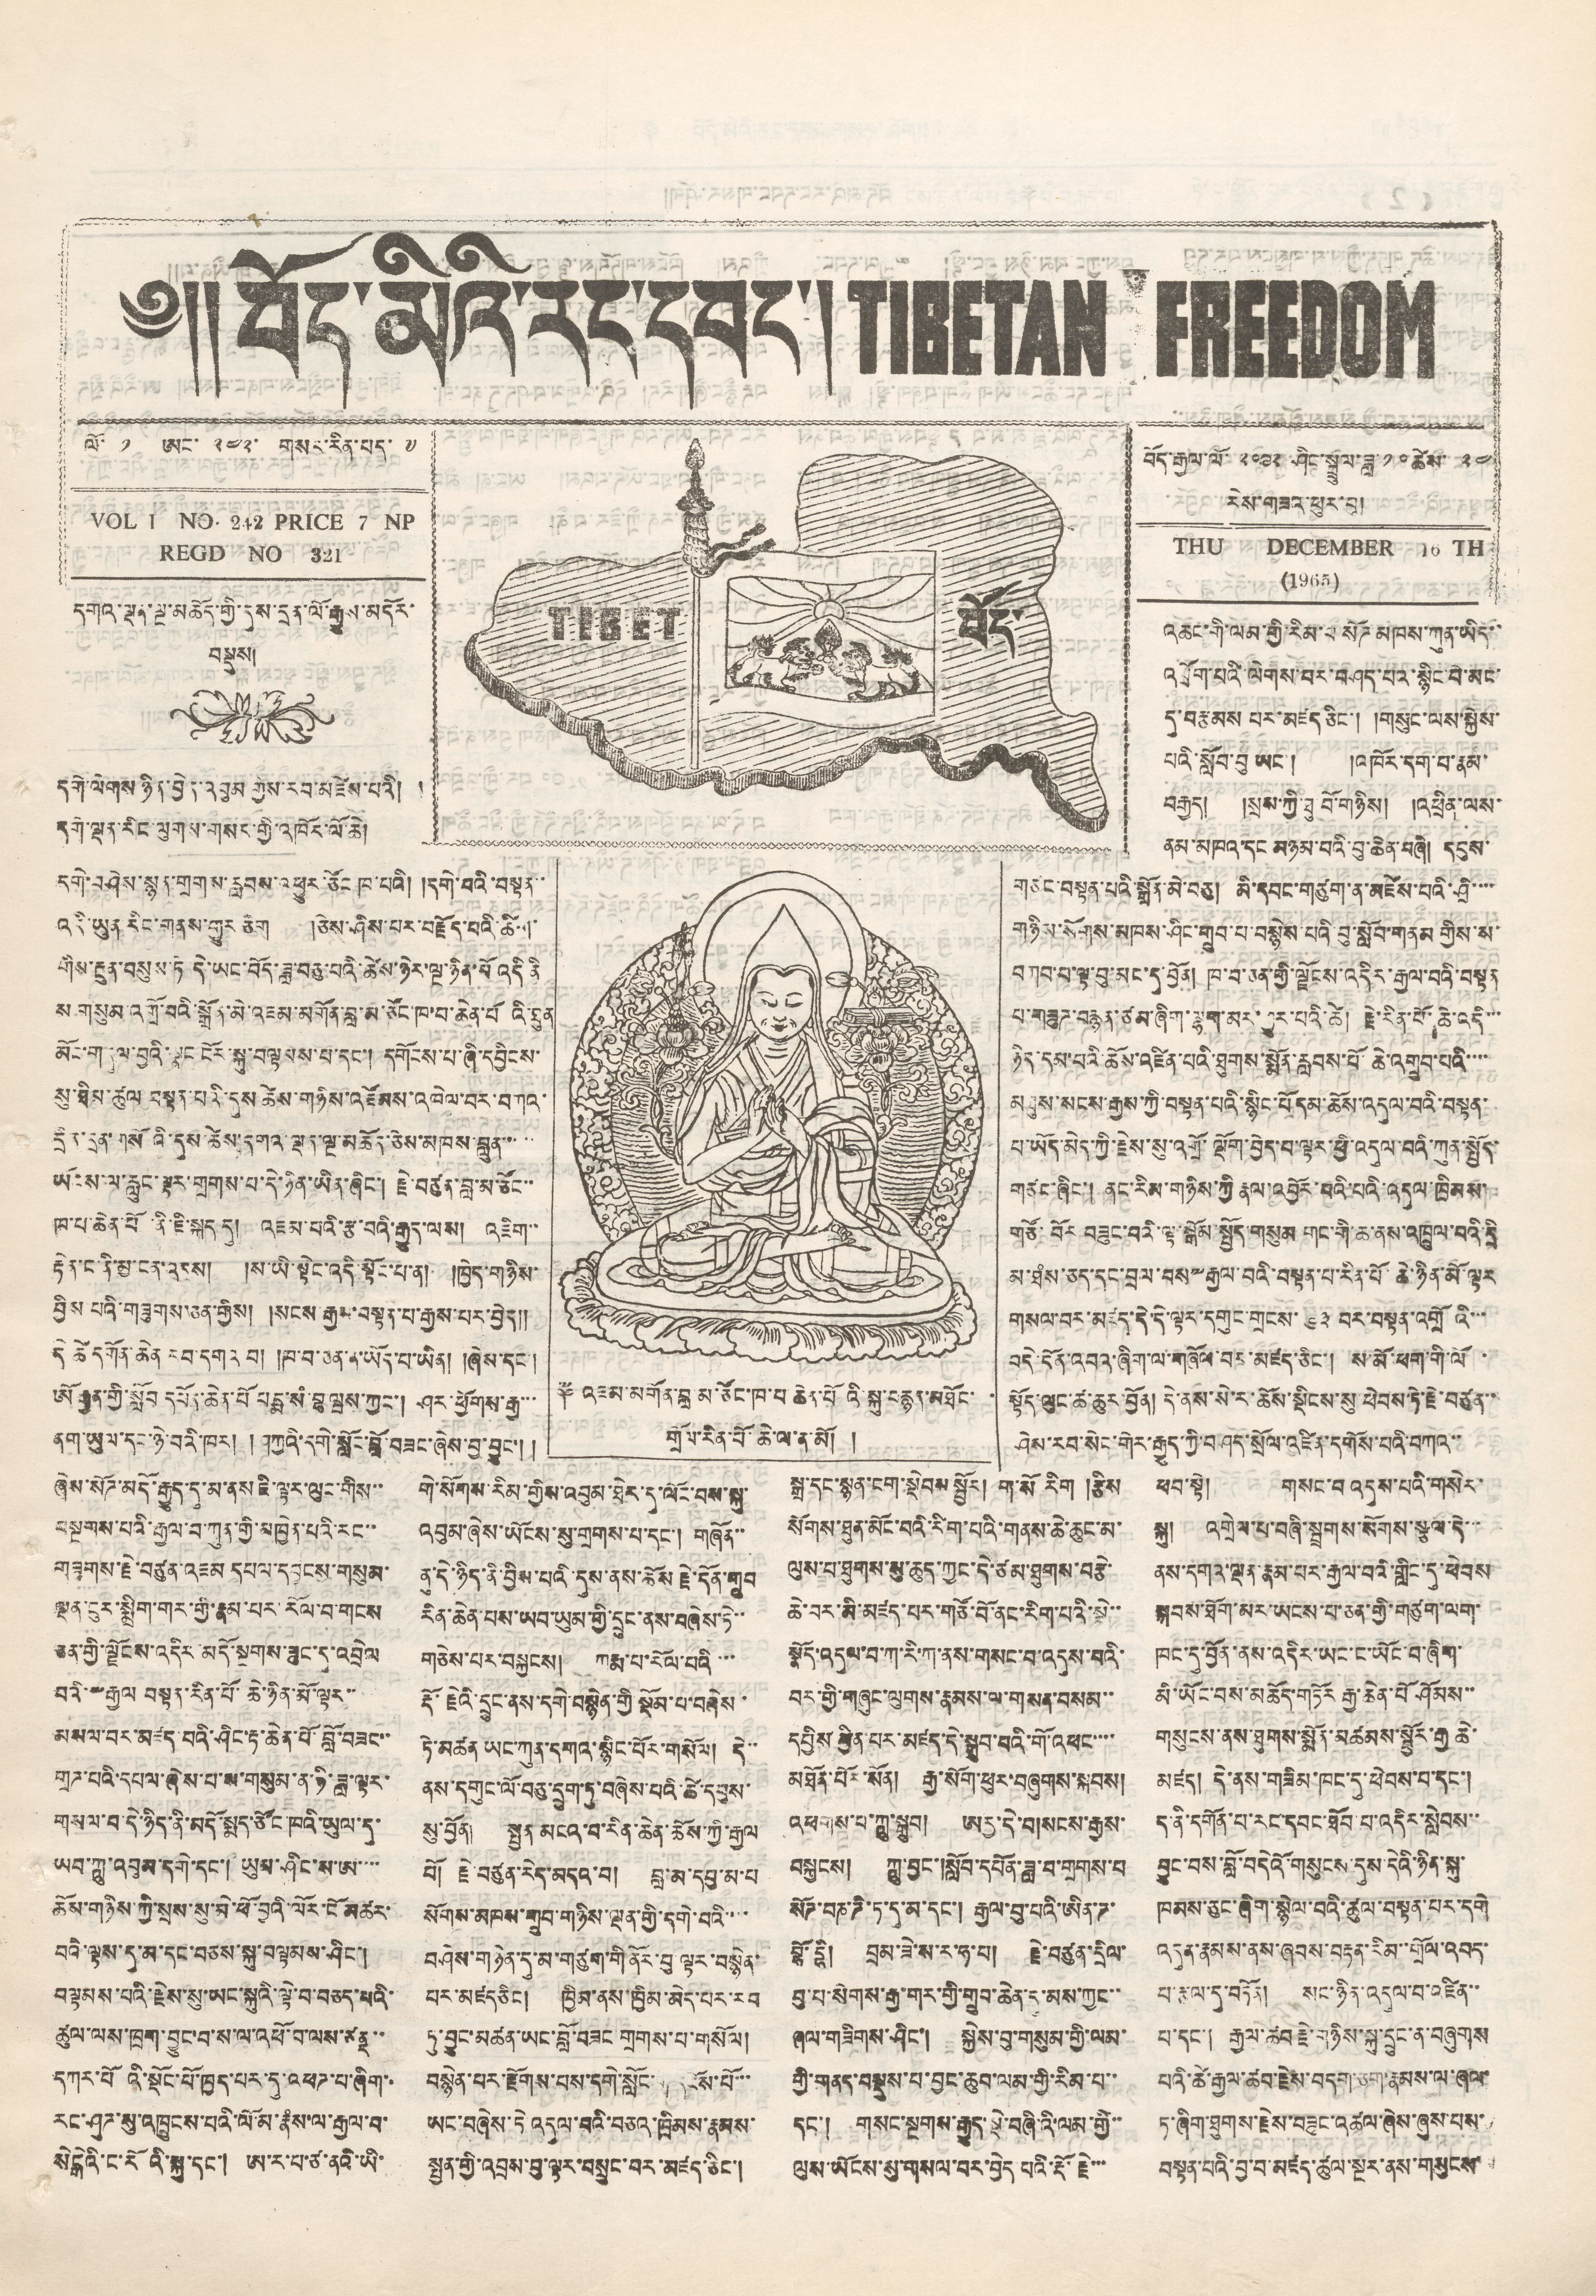༄།། བོད་མིའི་རང་དབང་། TIBETAN FREEDOM
ལོ་ ༡ ཨང་ ༢༤༢་ གསར་རིན་པད་ ༧
བོད་རྒྱལ་ལོ་ ༢༠༩༢ ཤིང་སྦྲུག་ཟླ་ ༡༠ ཚེས་ ༢༤
རེས་གཟའ་ཕུར་བུ།
VOL 1 NO 212 PRICE 7 NP.
REGD NO 321
THU DECEMBER 16 TH
(1965)
TIBET བོད་
༈ འཇམ་འགོན་བླ མ་ཙོང་ཁ་པ་ཆེན་པོའི་སྐུ་བརྙན་མཐོང་
གྲོལ་རིན་པོ་ཆེ་ལ་ན་མོ། །
དགའ་ལྡན་ལྔ་མཆོད་གྱི་དུས་དྲན་ལོ་རྒྱུས་མདོར་
བསྡུས།
དགེ་ལེགས ཉིན་བྱེད་འབུམ གྱིས་རབ་མཛེས་པའི། །
དགེ་ལྡན་རིང་ལུགས་གསར་གྱི་འཁོར་ལོ་ཆེ།
དགེ་བཤེས་སྙན་གྲགས་རླབས་འཕྱུར་ཙོང ཁ་པའི། །དགེ་བའི་བསྟན་་
པའི་ཡུན རིང་གནས་གྱུར ཅིག །ཅེས་ཤིས་པར་བརྗོད་པའི་ཚིག་
གིས་རྔུན་བསུས་ཏེ དེ་ཡང་བོད་ཟླ་བཅུ་པའི་ཚེས་ཉེར་ལྔ་ཉིན་མི འདི ནི
ས གསུམ་འགྲོ་བའི་སྒྲོན་མེ་འཇམ་མགོན་བླ་མ་ཙོང་ཁ་བ་ཆེན་པོའི་ཐུན
མོང་གདུལ་བྱའི་སྣང ངོར་སྐུ་བལྟམས་པ་དང་། དགོངས་པ་ཞི་དབྱིངས་
སུ་ཐིམ་ཚུལ བསྟན་པའི་དུས ཚེས་གཉིས་འཛོམས་འཁེལ་བར་བཀའ་
དྲིན་དྲན་གསོའི་དུས་ཚེས་དགའ་ལྡན་ལྔ་མཆོད་ཅེས་མཁས་བླུན་་་་་
ཡོངས་ལ་རླུང་ལྟར་གྲགས་པ་དེ་ཉིན་ཡིན་ཞིང་། རྗེ་བཙུན་བླ་མ་ཙོང་་
ཁ་པ་ཆེན་པོ་ནི་ཇི་སྐད དུ། འཇམ་པའི་རྩ་བའི་རྒྱུད་ལས། འཇིག་་
རྟེན་ང་ནི་མྱ་ངན་འདས། །ས་ཡི་སྟེང་འདི་སྟོང་པ་ན། །ཁྱེད་གཉིས་
བྱིས པའི་གཟུགས་ཅན་གྱིས། །སངས་རྒྱས་བསྟན་པ་རྒྱས་པར་བྱེད།།
དེ ཚེ དགོན་ཆེན རབ་དགའ་བ། །ཁ་བ་ཅན་ན་ཡོད་པ་ཡིན། །ཞེས་དང་།
ཨོ རྒྱན་གྱི་སློབ དཔོན་ཆེན་པོ པདྨ་སཾ་བྷ ཝས་ཀྱང་། ཤར་ཕྱོགས་རྒྱ་་་
ནག་ཡུལ་དང་ཉེ་བའི་ཁར། །ཤཀྱའི་དགེ་སློང་བློ་བཟང་ཞེས་བྱ་བྱུང་།།
ཞེས་སོཌ་མདོ་རྒྱུད་དུ་མ་ནས ཇི་ལྟར་ལུང་གིས་་
བསྔགས་པའི་རྒྱལ་བ་ཀུན་གྱི་མཁྱེན་པའི་རང་་
གཟུགས་རྗེ་བཙུན་འཇམ དཔལ་དབྱངས་གསུམ་
ལྡན་ངུར་སྨྲིག་གར་གྱི་རྣམ་པར་རོལ་བ་གངས
ཅན་གྱི་ལྗོངས་འདིར་མདོ་སྔགས་ཟུང་དུ་འབྲེལ
བའི་༸རྒྱལ བསྟན་རིན་པོ་ཆེ་ཉིན་མོ་ལྟར་་
མསལ་བར་མཛད་པའི་ཤིང་རྟ་ཆེན་པོ་བློ་བཟང་་
གྲཌ་པའི་དཔལ་ཞེས་པ་ས་གསུམ་ན་ཉི་ཟླ་ལྟར་
གསལ་བ་དེ་ཉིད་ནི་མདོ་སྨད་ཙོང་ཁའི་ཡུལ་དུ་
ཡབ་ཀླུ་འབུམ་དགེ་དང་། ཡུམ་ཤིང་ས་ཨ་་་་
ཆོས་གཉིས་ཀྱི་སྲས་སུ་མེ་ཕོ་བྱའི་ལོར་ངོ མཚར་
བའི་ལྟས་དུ་མ་དང་བཅས་སྐུ་བལྟམས་ཤིང་།
བལྟམས་པའི་རྗེས་སུ་ཡང་སྐུའི་ལྟེ་བ་བཅད་པའི་
ཚུལ་ལས་ཁྲག་བྱུང་བ་ས་ལ་འཕོ་བ་ལས་ཙནྡ་་
དཀར་པོའི་སྡོང་པོ་ཁྱད་པར་དུ་འཕཌ་པ་ཞིག་་
རང་ཤུཌ་སུ་འཁྲུངས་པའི་ལོ་མ་རྣཾས་ལ་རྒྱལ་བ་
སེངྒེའི་ང་རོའི་སྐུ་དང་། ཨ་ར་པ་ཙ་ནའི་ཡི་
གེ་སོགས་རིམ་གྱིས་འབུལ་ཐེར་དུ་ལོང་བས་སྐུ་
འབུམ་ཞེས་ཡོངས་སུ་གྲགས་པ་དང་། གཞོན་་
ནུ་དེ་ཉིད་ནི་བྱིས་པའི་དུས་ནས་ཆོས རྗེ་དོན་གྲུབ
རིན་ཆེན་པས་ཡབ་ཡུམ་གྱི་དྲུང་ནས་བཞེས་ཏེ་་
གཅེས་པར་བསྐྱངས། ཀརྨ་པ་རོལ་པའི་་་
རྡོ་རྗེའི་དྲུང་ནས་དགེ་བསྙེན་གྱི་སྡོམ་པ་བཞེས་
ཏེ་མཚན ཡང་ཀུན་དགའ་སྙིང་པོར་གསོལ། དེ་་
ནས་དགུང་ལོ་བཅུ་དྲུག་ཏུ་བཞེས་པའི་ཚེ་དབུས་
སུ་བྱོན། སྤྱན མངའ་པ་རིན་ཆེན་ཆོས་ཀྱི་རྒྱལ
པོ། རྗེ་བཙུན་རེད་མདའ་བ། བླ་མ་དབྱ་མ་པ
སོགས་མཁས་གྲུབ་གཉིས་ལྡན་གྱི་དགེ་བའི་་་་
བཤེས་གཉེན་དུ་མ་གཙུག་གི་ནོར་བུ་ལྟར་བསྙེན་
པར་མཛད ཅིང། ཁྱིམ་ནས་ཁྱིམ་མེད་པར་རབ
ཏུ་བྱུང་མཚན་ཡང་བློ་བཟང་གྲགས་པ་གསོལ།
བསྙེན་པར་རྫོགས་པས་དགེ་སློང་གི་དངོས་པོ་་་
ཡང་བཞེས་ཏེ་འདུལ་བའི་བཅའ་ཁྲིམས་རྣམས་
སྤྱན་གྱི་འབྲས་བུ་ལྟར་བསྲུང་བར་མཛད་ཅིང་།
སྒྲ་དང་སྙན་ངག་སྡེབས་སྦྱོར། ག་སོ རིག །རྩིས་
སོགས་ཐུན་མོང་བའི་རིག་པའི་གནས་ཆེ་ཆུང་མ་
ལུས་པ་ཐུགས་སུ་ཆུད་ཀྱང་དེ་ཙམ་ཐུགས་བརྩེ་
ཆེ་བར་མི་མཛད་པར་གཙོ་བོ་ནང་རིག་པའི་སྡེ་་
སྣོད་འདུལ་བ་ཀ་རི་ཀ་ནས་གསང་བ་འདུས་བའི་
བར་གྱི་གཞུང་ལུགས་རྣམས་ལ་གསན་བསམ་་
དཔྱིས བྱིན་པར་མཛད་དེ་སྒྲུབ་པའི་གོ་འཕང་་་་
མཐོན་པོར་སོན། རྒྱ་སོག་ཕུར་བཞུགས་སྐབས།
འཕགས་པ་ཀླུ་སྒྲུབ། །ཨརྱ་དེ་བ།སངས་རྒྱས་
བསྐྱངས། ཀླུ་བྱང་།སློབ་དཔོན་ཟླ་བ་གྲགས་པ་
སོཌ་པཎ་ཌི་ཏ་དུ་མ་དང་། རྒྱལ་བུ་པའི་ཨིན་ཌ་
བྷོ་དྷི། བྲམ་ཟེ་ས་ར་ཧ་པ། རྗེ་བཙུན་དྲིལ་
བྱ་པ་སོགས་རྒྱ་གར་གྱི་གྲུབ་ཆེན་དུ་མས་ཀྱང་་
ཞལ་གཟིགས་ཤིང་། སྐྱེས་བུ་གསུམ་གྱི་ལམ་
གྱི་གནད་བསྡུས་པ་བྱང་ཆུབ་ལམ་གྱི་རིམ་པ་་
དང་། གསང་སྔགས་རྒྱུད་སྡེ་བཞི་འི་ལམ་གྱི་་
ལུས་ཡོངས་སུ་གསལ་བར་བྱེད པའི་རྡོ་རྗེ་་་
འཆང་གི་ལམ་གྱི་རིམ་པ སོཌ མཁས་ཀུན་ཡིད་་
འཕྲོག་པའི་ལེགས་པར་བཤད་པའ་སྙིང་བེ་མང་
དུ་བརྩམས པར་མཛད ཅིང་། །གསུང་ལས་སྐྱེས་
པའི་སློབ་བུ ཡང་། །འཁོར་དག་པ་རྣམ་
བརྒྱད། །སྲས་ཀྱི་ཐུ་བོ་གཉིས། །འཕྲིན་ལས་
ནམ་མཁའ་དང མཉམ་པའི་བུ་ཆེན་བཞི། དངུལ་
གཙང་བསྟན་པའི་སྒྲོན་མེ་བཅུ། མི་དབང་གཙུག་ན་མཛེས་པའི་ཤྲི་་་་
གཉིས་སོགས་མཁས་ཤིང་གྲུབ་པ་བསྙེས་པའི་བུ་སློབ་གནམ་གྱིས་ས་
བཀབ་པ་ལྟ་བུ་མང་དུ་བྱོན། ཁ་བ་ཅན་གྱི་ལྗོངས་འདིར་རྒྱལ་བའི་བསྟན
པ་གཟུཌ་བརྙན་ཙམ་ཞིག་ལྷག་མར་གྱུར་པའི་ཚེ། རྗེ་རིན་པོ་ཆེ་འདི་་་
ཉིད་དམ་པའི་ཆོས་འཛིན་པའི་ཐུགས་སྨོན་རླབས་པོ་ཆེ་འགྲུབ་པའི་་་་
མཐུས་སངས་རྒྱས་ཀྱི་བསྟན་པའི་སྙིང་པོ དམ་ཆོས་འདུལ་བའི་བསྟན་
པ་ཡོད་མེད་ཀྱི་རྗེས་སུ་འགྲོ་ལྡོག་བྱེད་པ་ལྟར་ཕྱི་འདུལ་བའི་ཀུན་སྤྱོད་
གཙང་ཞིང་། ནང་རིམ་གཉིས་ཀྱི རྣལ་འབྱོར་བའི་པའི་འདུལ་ཁྲིམས་
གཙོ་བོར བཟུང་བའི་ལྟ་སྒོམ་སྤྱོད་གསུམ གང་གི་ཆ་ནས་འཁྲུལ་བའི་དྲི
མ་ཐཾས་ཅད་དང་བྲལ་བས་༸རྒྱལ་བའི་བསྟན་པ་རིན་པོ་ཆེ་ཉིན་མོ་ལྟར
གསལ་བར་མཛད་དེ་དེ་ལྟར་དགུང་གྲངས་ ༦༣ བར་བསྟན་འགྲོའི་་་
བདེ་དོན་འབའ་ཞིག་ལ་གཞོལ་བར་མཛད་ཅིང་། ས་མོ་ཕག་གི་ལོ་
སྟོད་ལུང་ཚ་ཆུར་བྱོན། དེ་ནས་སེ་ར་ཆོས་སྡིངས་སུ་ཕེབས་ཏེ་རྗེ་བཙུན་་
ཤེས་རབ་སེང་གེར་རྒྱུད་ཀྱི་བཤད་སྲོལ་འཛིན་དགོས་པའི་བཀའ་་
ཕབ་སྟེ། གསང་བ འདུལ་པའི་གསེར་
སྐུ། འགྲེལ་པ་བཞི་སྦྲགས་སོགས་སྩལ་དེ་་་
ནས་དགའ་ལྡན་རྣམ་པར་རྒྱལ་བའི་གླིང་དུ་ཕེབས
སྐབས་ཐོག་མར་ཡངས་པ་ཅན་གྱི་གཙུག་ལག་
ཁང་དུ་བྱོན་ནས་འདིར་ཡང་ང་ཡོང་བ་ཞིག་
མི་ཡོང་བས་མཆོད་གཏོར རྒྱ་ཆེན་པོ ཤོམས་་
གསུངས་ནས་ཐུགས་སྨོན་མཚམས་སྦྱོར་རྒྱ ཆེ་
མཛད། དེ་ནས་གཟིམ་ཁང་དུ་ཕེབས་པ་དང་།
ད་ནི་དགོན་པ་རང་དབང་ཐོབ་པ་འདིར་སླེབས་་
བྱུང་བས་བློ་བདེའོ་གསུངས་དུས་དེའི་ཉིན་སྐུ་
ཁམས་ཅུང་ཞིག་སྙེལ་བའི་ཚུལ་བསྟན་པར་དགེ
འདུན་རྣམས་ནས་ཞབས་བརྟན་རིམ་་གྲོལ་འབད་
པ་རྩལ་དུ་བཏོན། སང་ཉིན་འདུལ་བ་འཛིན་་
པ་དང་། རྒྱལ་ཚབ་རྗེ་གཉིས་སྐུ་དྲུང་ན་བཞུགས
པའི་ཚེ་རྒྱལ་ཚབ་རྗེས་བདག་ཅག་རྣམས་ལ་ཞལ་
ཏ་ཞིག་ཐུགས་རྗེས་བཟུང་འཚལ་ཞེས་ཞུས་པས་
བསྟན་པའི་བྱ་བ་མཛད་ཚུལ་སྔར་ནས་གསུངས་
